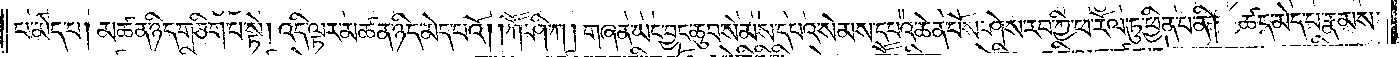པ་མེད་པ། མཚན་ཉིད་གཅིག་པ་སྟེ། འདི་ལྟར་མཚན་ཉིད་མེད་པའོ། །ཀཽ་ཤི་ཀ། གཞན་ཡང་བྱང་ཆུབ་སེམས་དཔའ་སེམས་དཔའ་ཆེན་པོས་ཤེས་རབ་ཀྱི་ཕ་རོལ་ཏུ་ཕྱིན་པ་ནི། ཚད་མེད་པ་རྣམས་
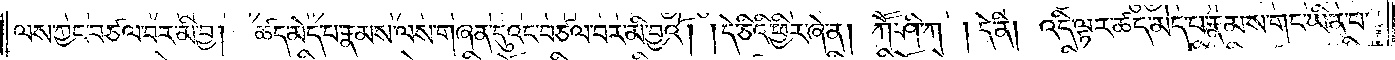ལས་ཀྱང་བཙལ་བར་མི་བྱ། ཚད་མེད་པ་རྣམས་ལས་གཞན་དུའང་བཙལ་བར་མི་བྱའོ། །དེ་ཅིའི་ཕྱིར་ཞེ་ན། ཀཽ་ཤི་ཀ །དེ་ནི། འདི་ལྟར་ཚད་མེད་པ་རྣམས་གང་ཡིན་པ་
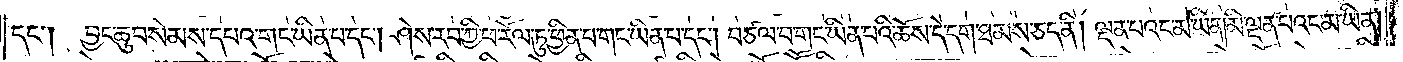དང༌། བྱང་ཆུབ་སེམས་དཔའ་གང་ཡིན་པ་དང༌། ཤེས་རབ་ཀྱི་ཕ་རོལ་ཏུ་ཕྱིན་པ་གང་ཡིན་པ་དང༌། བཙལ་བ་གང་ཡིན་པའི་ཆོས་དེ་དག་ཐམས་ཅད་ནི། ལྡན་པའང་མ་ཡིན། མི་ལྡན་པའང་མ་ཡིན།
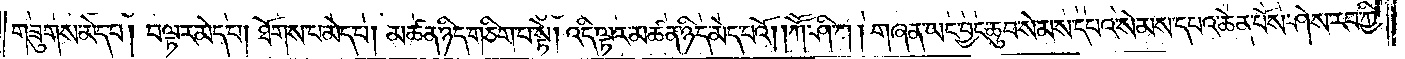གཟུགས་མེད་པ། བལྟར་མེད་པ། ཐོགས་པ་མེད་པ། མཚན་ཉིད་གཅིག་པ་སྟེ། འདི་ལྟར་མཚན་ཉིད་མེད་པའོ། །ཀཽ་ཤི་ཀ། གཞན་ཡང་བྱང་ཆུབ་སེམས་དཔའ་སེམས་དཔའ་ཆེན་པོས་ཤེས་རབ་ཀྱི་
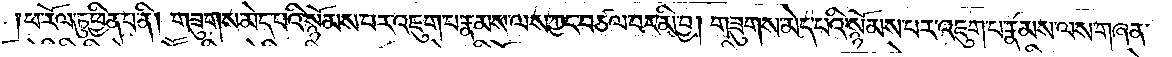ཕ་རོལ་ཏུ་ཕྱིན་པ་ནི། གཟུགས་མེད་པའི་སྙོམས་པར་འཇུག་བ་རྣམས་ལས་ཀྱང་བཙལ་བར་མི་བྱ། གཟུགས་མེད་པའི་སྙོམས་པར་འཇུག་བ་རྣམས་ལས་གཞན་
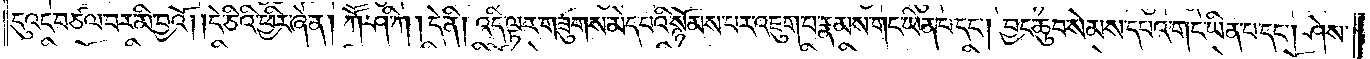དུའང་བཙལ་བར་མི་བྱའོ། །དེ་ཅིའི་ཕྱིར་ཞེ་ན། ཀཽ་ཤི་ཀ། དེ་ནི། འདི་ལྟར་གཟུགས་མེད་པའི་སྙོམས་པར་འཇུག་པ་རྣམས་གང་ཡིན་པ་དང༌། བྱང་ཆུབ་སེམས་དཔའ་གང་ཡིན་པ་དང༌། ཤེས་
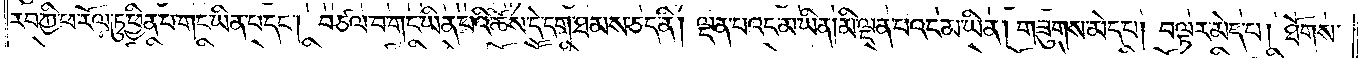རབ་ཀྱི་ཕ་རོལ་ཏུ་ཕྱིན་པ་གང་ཡིན་པ་དང༌། བཙལ་བ་གང་ཡིན་པའི་ཆོས་དེ་དག་ཐམས་ཅད་ནི། ལྡན་པའང་མ་ཡིན་མི་ལྡན་པའང་མ་ཡིན། གཟུགས་མེད་པ། བལྟར་མེད་པ། ཐོགས་
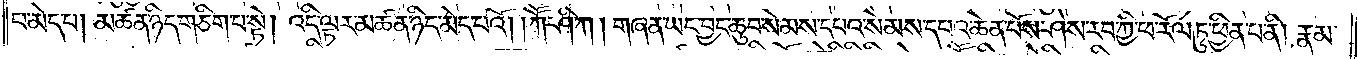པ་མེད་པ། མཚན་ཉིད་གཅིག་པ་སྟེ། འདི་ལྟར་མཚན་ཉིད་མེད་པའོ། །ཀཽ་ཤི་ཀ། གཞན་ཡང་བྱང་ཆུབ་སེམས་དཔའ་སེམས་དཔའ་ཆེན་པོས་ཤེས་རབ་ཀྱི་ཕ་རོལ་ཏུ་ཕྱིན་པ་ནི། རྣམ་
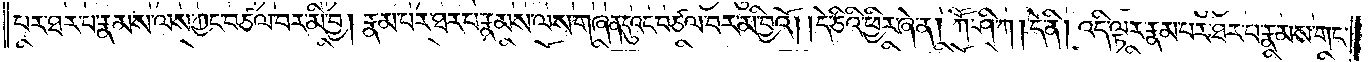པར་ཐར་པ་རྣམས་ལས་ཀྱང་བཙལ་བར་མི་བྱ། རྣམ་པར་ཐར་པ་རྣམས་ལས་གཞན་དུའང་བཙལ་བར་མི་བྱའོ། །དེ་ཅིའི་ཕྱིར་ཞེ་ན། ཀཽ་ཤི་ཀ། དེ་ནི། འདི་ལྟར་རྣམ་པར་ཐར་པ་རྣམས་གང་
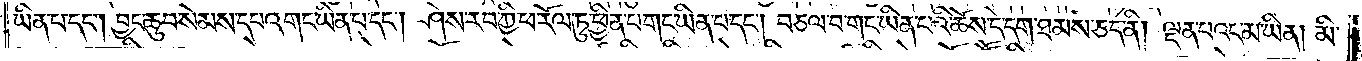ཡིན་པ་དང༌། བྱང་ཆུབ་སེམས་དཔའ་གང་ཡིན་པ་དང༌། ཤེས་རབ་ཀྱི་ཕ་རོལ་ཏུ་ཕྱིན་པ་གང་ཡིན་པ་དང༌། བཙལ་པ་གང་ཡིན་པའི་ཆོས་དེ་དག་ཐམས་ཅད་ནི། ལྡན་པའང་མ་ཡིན། མི་
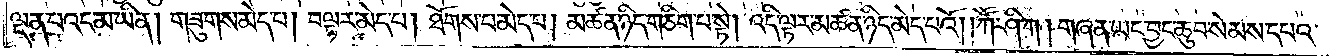ལྡན་པའང་མ་ཡིན། གཟུགས་མེད་པ། བལྟར་མེད་པ། ཐོགས་པ་མེད་པ། མཚན་ཉིད་གཅིག་པ་སྟེ། འདི་ལྟར་མཚན་ཉིད་མེད་པའོ། །ཀཽ་ཤི་ཀ། གཞན་ཡང་བྱང་ཆུབ་སེམས་དཔའ་
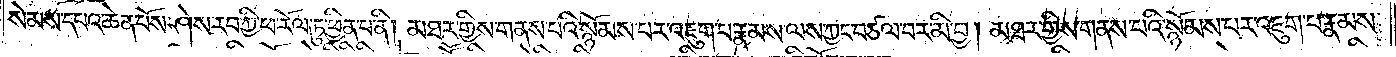སེམས་དཔའ་ཆེན་པོས་ཤེས་རབ་ཀྱི་ཕ་རོལ་ཏུ་ཕྱིན་པ་ནི། མཐར་གྱིས་གནས་པའི་སྙོམས་པར་འཇུག་པ་རྣམས་ལས་ཀྱང་བཙལ་བར་མི་བྱ། མཐར་གྱིས་གནས་པའི་སྙོམས་པར་འཇུག་པ་རྣམས་
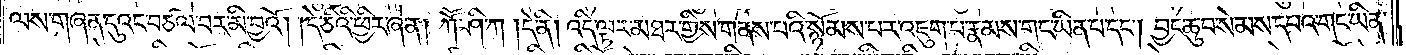ལས་གཞན་དུའང་བཙལ་བར་མི་བྱའོ། །དེ་ཅིའི་ཕྱིར་ཞེ་ན། ཀཽ་ཤི་ཀ །དེ་ནི། འདི་ལྟར་མཐར་གྱིས་གནས་པའི་སྙོམས་པར་འཇུག་པ་རྣམས་གང་ཡིན་པ་དང༌། བྱང་ཆུབ་སེམས་དཔའ་གང་ཡིན་
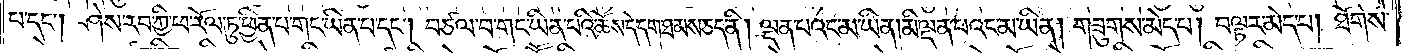པ་དང༌། ཤེས་རབ་ཀྱི་ཕ་རོལ་ཏུ་ཕྱིན་པ་གང་ཡིན་པ་དང༌། བཙལ་བ་གང་ཡིན་པའི་ཆོས་དེ་དག་ཐམས་ཅད་ནི། ལྡན་པའང་མ་ཡིན། མི་ལྡན་པའང་མ་ཡིན། གཟུགས་མེད་པ། བལྟར་མེད་པ། ཐོགས་
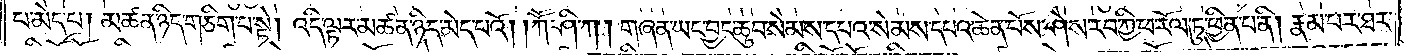པ་མེད་པ། མཚན་ཉིད་གཅིག་པ་སྟེ། འདི་ལྟར་མཚན་ཉིད་མེད་པའོ། །ཀཽ་ཤི་ཀ། གཞན་ཡང་བྱང་ཆུབ་སེམས་དཔའ་སེམས་དཔའ་ཆེན་པོས་ཤེས་རབ་ཀྱི་ཕ་རོལ་ཏུ་ཕྱིན་པ་ནི། རྣམ་པར་ཐར་
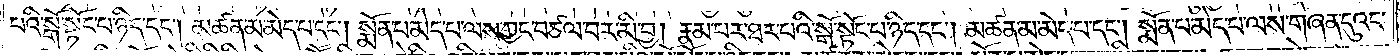པའི་སྒོ་སྟོང་པ་ཉིད་དང༌། མཚན་མ་མེད་པ་དང༌། སྨོན་པ་མེད་པ་ལས་ཀྱང་བཙལ་པར་མི་བྱ། རྣམ་པར་ཐར་པའི་སྒོ་སྟོང་པ་ཉིད་དང༌། མཚན་མ་མེད་པ་དང༌། སྨོན་པ་མེད་པ་ལས་གཞན་དུའང་
